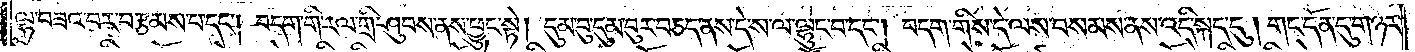ལྷ་བཟའ་བར་བརྩམས་བ་དང༌། བདག་གི་རལ་གྲི་ཤུབས་ནས་ཕྱུང་སྟེ། དུམ་བུ་དུམ་བུར་བཅད་ནས་དེ་ས་ལ་ལྷུང་བ་དང༌། བདག་གིས་དེ་ལས་བསམས་ནས་འདི་སྐད་དུ། གང་དོན་དུ་གཉེར་
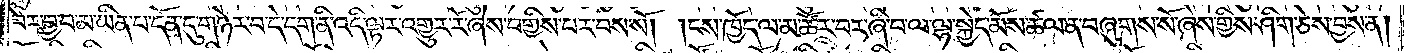བར་བྱ་བ་མ་ཡིན་པ་དོན་དུ་གཉེར་བ་དེ་དག་ནི་འདི་ལྟར་འགྱུར་རོ་ཞེས་བགྱིས་པར་བས་སོ། །ངས་ཁྱོད་ལ་མཚོར་བར་ཞི་བ་ལ་ལྷ་སྐྱེད་མོས་ཚལ་ན་བཞུགས་སོ་ཞེས་གྱིས་ཤིག་ཅེས་བྱས་ན།
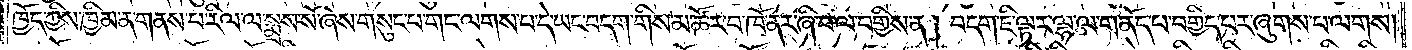ཁྱོད་ཀྱིས་ཁྱིམ་ན་གནས་པ་རིལ་ལ་སྨྲས་སོ་ཞེས་གསུང་པ་གང་ལགས་པ་དེ་ཡང་བདག་གིས་མ་ཚོར་བ་ཁོ་ནར་ཞིབ་ལ་བགྱིས་ན། བདག་ཇི་ལྟར་ལྷ་ལ་གནོད་པ་བགྱིད་བར་ཞུགས་པ་ལགས།
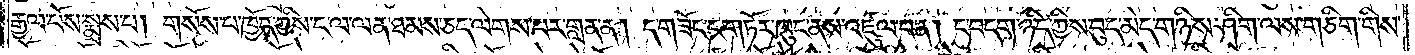རྒྱལ་པོས་སྨྲས་པ། གསོས་པ་ཁྱོད་ཀྱིས་ང་ལ་ལན་ཐམས་ཅད་ལེགས་པར་གླན་ན། ད་གཟོད་ང་གཏོར་ཁུང་ནས་འཛུལ་བ་ན། ང་བདག་ཉིད་ཀྱིས་བུད་མེད་གཉིས་ཤིག་ལས་གཅིག་གིས་
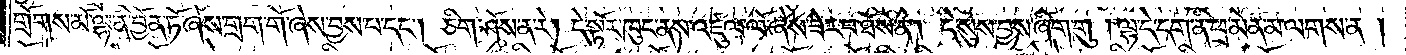གྲོགས་མོ་ལྷ་ནི་བྱོན་ཏོ་ཞེས་གྲག་གོ་ཞེས་བྱས་པ་དང༌། ཅིག་ཤོས་ན་རེ། དེ་སྟོར་ཁུང་ནས་འཛུལ་ལོ་ཞེས་ཟེར་བ་ཐོས་ན། དེ་སུས་བྱས་ཞིག་གུ་།ལྷ་དེ་དག་ནི་ཕྲ་མེན་མ་ལགས་ན།
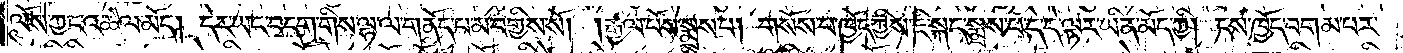ལོས་ཀྱང་འཚལ་མོད། དེར་ཡང་བདག་གིས་ལྷ་ལ་གནོད་པ་མ་བགྱིས་སོ། །རྒྱལ་པོས་སྨྲས་པ། གསོས་པ་ཁྱོད་ཀྱིས་ཇི་སྐད་སྨྲས་པ་དེ་དེ་ལྟར་ཡིན་མོད་ཀྱི། ངས་ཁྱོད་བགམ་པར་
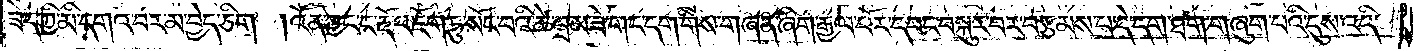ཟེད་ཀྱི་མི་དགའ་བར་མ་བྱེད་ཅིག །འོན་ཀྱང་ང་རྡོ་འཇོག་ཏུ་སོང་བའི་ཚེ་བྲམ་ཟེ་གང་དག་གིས་གཞན་ཞིག་རྒྱལ་པོར་དབང་བསྐུར་བར་བརྩམས་པ་དེ་དག་ཐག་གཞུག་པའི་དུས་འདི་
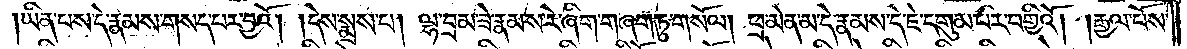ཡིན་པས་དེ་རྣམས་གསད་པར་བྱའོ། །དེས་སྨྲས་པ། ལྷ་བྲམ་ཟེ་རྣམས་རེ་ཞིག་གཞག་ཏུ་གསོལ། ཕྲ་མེན་མ་དེ་རྣམས་དེ་ཇེ་དགུམ་པར་བགྱིའོ། །རྒྱལ་པོས་
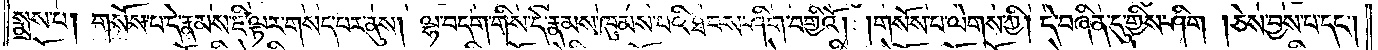སྨྲས་པ། གསོས་པ་དེ་རྣམས་ཇི་ལྟར་གསད་པར་ནུས། ལྷ་བདག་གིས་དེ་རྣམས་ཁུམས་པའི་ཐབས་ཤིག་བགྱིའོ། །གསོས་པ་ལེགས་ཀྱི། དེ་བཞིན་དུ་གྱིས་ཤིག །ཅེས་བྱས་པ་དང༌།
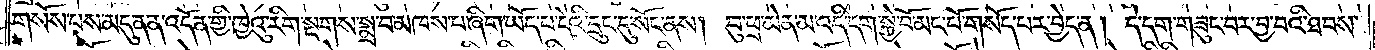གསོས་པས་མདུན་ན་འདོན་གྱི་ཁྱེའུ་རིག་སྔགས་སྨྲ་བ་མཁས་པ་ཞིག་ཡོད་པ་དེའི་དྲུང་དུ་སོང་ནས། བུ་ཕྲ་མེན་མ་འདི་དག་སྐྱེ་བོ་མང་པོ་གསོད་པར་བྱེད་ན། དེ་དག་གཟུང་བར་བྱ་བའི་ཐབས་
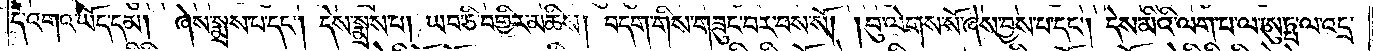དེ་འགའ་ཡོད་དམ། ཞེས་སྨྲས་པ་དང༌། དེས་སྨྲས་པ། ཡབ་ཅི་བགྱིར་མཆིས། བདག་གིས་གཟུང་བར་བས་སོ། །བུ་ལེགས་སོ་ཞེས་བྱས་པ་དང༌། དེས་མིའི་ལག་པ་ལ་ཨུཏྤ་ལ་འདྲ་
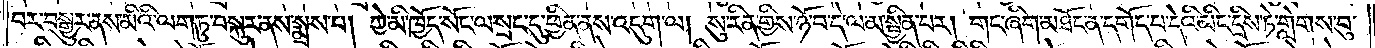བར་བསྒྱུར་ནས་མིའི་ལག་ཏུ་བསྐུར་ནས་སྨྲས་པ། ཀྱེ་མི་ཁྱོད་སོང་ལ་སྲང་དུ་ཕྱིན་ནས་འདུག་ལ། སུ་རིན་གྱིས་ཉོ་བ་དེ་ལ་མ་སྦྱིན་པར། གང་ཞིག་མཐོང་ན་དགོད་པ་དེའི་མིང་དྲིས་ཏེ་གླེགས་བུ་
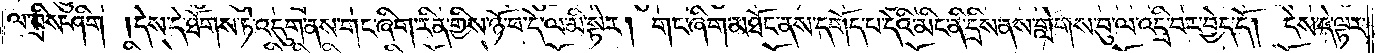ལ་བྲིས་ཤིག །དེས་དེ་ཐོགས་ཏེ་འདུག་ནས་གང་ཞིག་རིན་གྱིས་ཉོ་བ་དེ་ལ་མི་སྟེར། གང་ཞིག་མཐོང་ནས་དགོད་པ་དེའི་མིང་ནི་དྲིས་ནས་གླེགས་བུ་ལ་འདྲི་བར་བྱེད་དོ། །དེས་དེ་ལྟར་
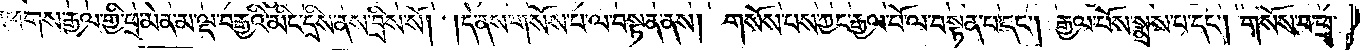འཕགས་རྒྱལ་གྱི་ཕྲ་མེན་མ་ལྔ་བརྒྱའི་མིང་དྲིས་ནས་བྲིས་སོ། །དེ་ནས་གསོས་པ་ལ་བསྟན་ནས། གསོས་པས་ཀྱང་རྒྱལ་པོ་ལ་བསྟན་པ་དང༌། རྒྱལ་པོས་སྨྲས་པ་དང༌། གསོས་པ་ཕྲ་
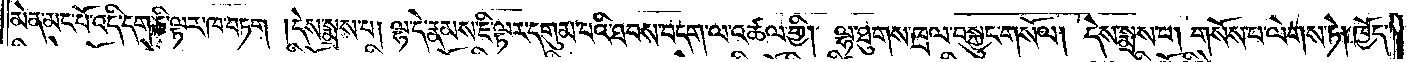མེན་མང་པོ་འདེ་དག་ཅི་ལྟར་ཁ་བཏག །དེས་སྨྲས་པ། ལྷ་དེ་རྣམས་ཇི་ལྟར་དགུམ་པའི་ཐབས་བདག་ལ་འཚལ་གྱི། ལྷ་ཐུགས་ཁྲལ་བསྐྱུང་གསོལ། དེས་སྨྲས་པ། གསོས་པ་ལེགས་ཏེ། ཁྱོད་
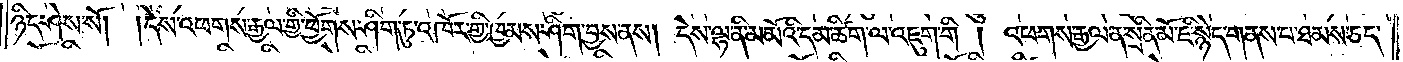ཉིད་ཤེས་སོ། །དེས་འཕགས་རྒྱལ་གྱི་ཕྱོགས་ཤིག་ཏུ་འཁོར་གྱི་ཁྱམས་ཤིག་བྱས་ནས། དེས་ལྷ་ནི་མ་མོའི་དམ་ཚིག་ལ་འཇུག་གི། འཕགས་རྒྱལ་ན་སྲིན་མོ་ཇི་སྙེད་གནས་པ་ཐམས་ཅད་
